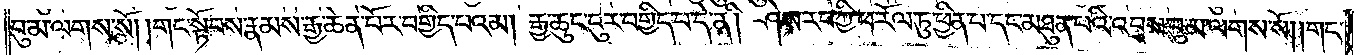བུ་མ་ལགས་སོ། །གང་སྟོབས་རྣམས་རྒྱ་ཆེན་པོར་བགྱིད་པའམ། རྒྱ་ཆུང་ངུར་བགྱིད་པ་དེ་ནི། ཤེས་རབ་ཀྱི་ཕ་རོལ་ཏུ་ཕྱིན་པ་དང་མཐུན་པའི་འབྲས་བུ་མ་ལགས་སོ། །གང་
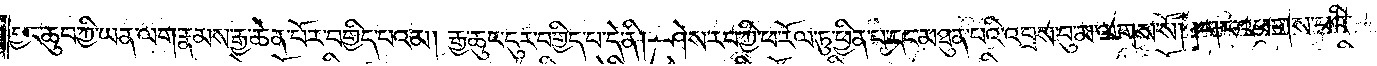བྱང་ཆུབ་ཀྱི་ཡན་ལག་རྣམས་རྒྱ་ཆེན་པོར་བགྱིད་པའམ། རྒྱ་ཆུང་ངུར་བགྱིད་པ་དེ་ནི། ཤེས་རབ་ཀྱི་ཕ་རོལ་ཏུ་ཕྱིན་པ་དང་མཐུན་པའི་འབྲས་བུ་མ་ལགས་སོ། །གང་འཕགས་པའི་
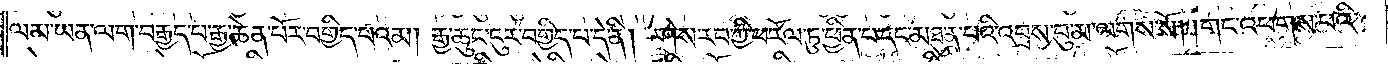ལམ་ཡན་ལག་བརྒྱད་པ་རྒྱ་ཆེན་པོར་བགྱིད་པའམ། རྒྱ་ཆུང་ངུར་བགྱིད་པ་དེ་ནི། ཤེས་རབ་ཀྱི་ཕ་རོལ་ཏུ་ཕྱིན་པ་དང་མཐུན་པའི་འབྲས་བུ་མ་ལགས་སོ། །གང་འཕགས་པའི་
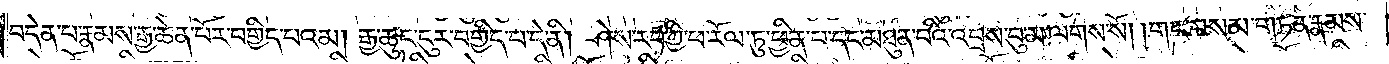བདེན་པ་རྣམས་རྒྱ་ཆེན་པོར་བགྱིད་པའམ། རྒྱ་ཆུང་ངུར་བགྱིད་པ་དེ་ནི། ཤེས་རབ་ཀྱི་ཕ་རོལ་ཏུ་ཕྱིན་པ་དང་མཐུན་པའི་འབྲས་བུ་མ་ལགས་སོ། །གང་བསམ་གཏན་རྣམས་
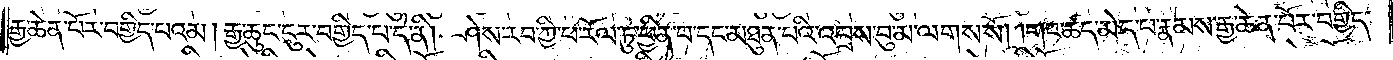རྒྱ་ཆེན་པོར་བགྱིད་པའམ། རྒྱ་ཆུང་ངུར་བགྱིད་པ་དེ་ནི། ཤེས་རབ་ཀྱི་ཕ་རོལ་ཏུ་ཕྱིན་པ་དང་མཐུན་པའི་འབྲས་བུ་མ་ལགས་སོ། །གང་ཚད་མེད་པ་རྣམས་རྒྱ་ཆེན་པོར་བགྱིད་
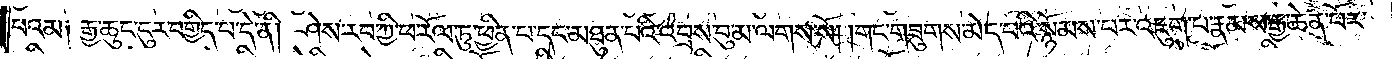པའམ༑ རྒྱ་ཆུང་ངུར་བགྱིད་པ་དེ་ནི། ཤེས་རབ་ཀྱི་ཕ་རོལ་ཏུ་ཕྱིན་པ་དང་མཐུན་པའི་འབྲས་བུ་མ་ལགས་སོ། །གང་གཟུགས་མེད་པའི་སྙོམས་པར་འཇུག་པ་རྣམས་རྒྱ་ཆེན་པོར་
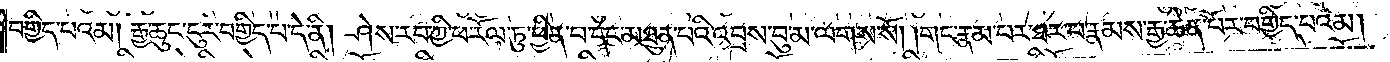བགྱིད་པའམ། རྒྱ་ཆུང་ངུར་བགྱིད་པ་དེ་ནི། ཤེས་རབ་ཀྱི་ཕ་རོལ་ཏུ་ཕྱིན་པ་དང་མཐུན་པའི་འབྲས་བུ་མ་ལགས་སོ། །གང་རྣམ་པར་ཐར་པ་རྣམས་རྒྱ་ཆེན་པོར་བགྱིད་པའམ།
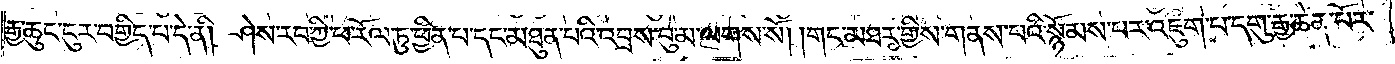རྒྱ་ཆུང་ངུར་བགྱིད་པ་དེ་ནི། ཤེས་རབ་ཀྱི་ཕ་རོལ་ཏུ་ཕྱིན་པ་དང་མཐུན་པའི་འབྲས་བུ་མ་ལགས་སོ། །གང་མཐར་གྱིས་གནས་པའི་སྙོམས་པར་འཇུག་པ་དགུ་རྒྱ་ཆེན་པོར་
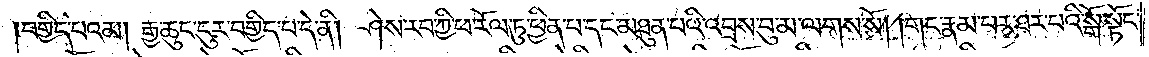བགྱིད་པའམ། རྒྱ་ཆུང་ངུར་བགྱིད་པ་དེ་ནི། ཤེས་རབ་ཀྱི་ཕ་རོལ་ཏུ་ཕྱིན་པ་དང་མཐུན་པའི་འབྲས་བུ་མ་ལགས་སོ། །གང་རྣམ་པར་ཐར་པའི་སྒོ་སྟོང་
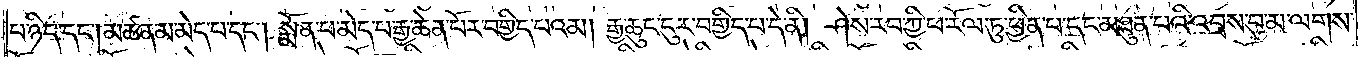པ་ཉིད་དང༌། མཚན་མ་མེད་པ་དང༌། སྨོན་པ་མེད་པ་རྒྱ་ཆེན་པོར་བགྱིད་པའམ། རྒྱ་ཆུང་ངུར་བགྱིད་པ་དེ་ནི། ཤེས་རབ་ཀྱི་ཕ་རོལ་ཏུ་ཕྱིན་པ་དང་མཐུན་པའི་འབྲས་བུ་མ་ལགས་
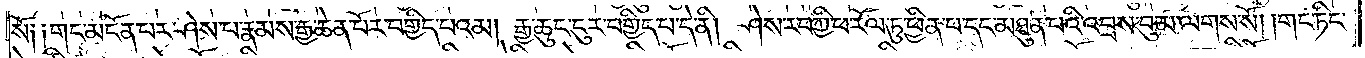སོ༑ ༑གང་མངོན་པར་ཤེས་པ་རྣམས་རྒྱ་ཆེན་པོར་བགྱིད་པའམ། རྒྱ་ཆུང་ངུར་བགྱིད་པ་དེ་ནི། ཤེས་རབ་ཀྱི་ཕ་རོལ་ཏུ་ཕྱིན་པ་དང་མཐུན་པའི་འབྲས་བུ་མ་ལགས་སོ། །གང་ཏིང་
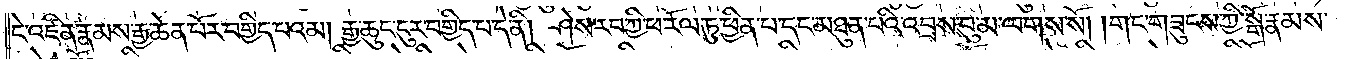ངེ་འཛིན་རྣམས་རྒྱ་ཆེན་པོར་བགྱིད་པའམ། རྒྱ་ཆུང་ངུར་བགྱིད་པ་དེ་ནི། ཤེས་རབ་ཀྱི་ཕ་རོལ་ཏུ་ཕྱིན་པ་དང་མཐུན་པའི་འབྲས་བུ་མ་ལགས་སོ། །གང་གཟུགས་ཀྱི་སྒོ་རྣམས་
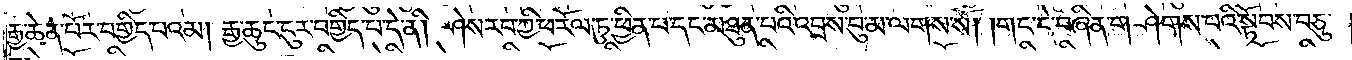རྒྱ་ཆེན་པོར་བགྱིད་པའམ། རྒྱ་ཆུང་ངུར་བགྱིད་པ་དེ་ནི། ཤེས་རབ་ཀྱི་ཕ་རོལ་ཏུ་ཕྱིན་པ་དང་མཐུན་པའི་འབྲས་བུ་མ་ལགས་སོ། །གང་དེ་བཞིན་གཤེགས་པའི་སྟོབས་བཅུ་
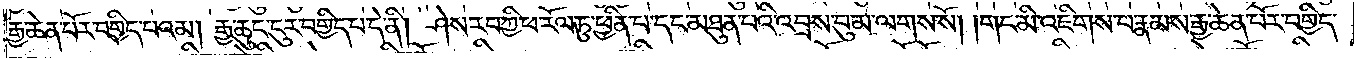རྒྱ་ཆེན་པོར་བགྱིད་པའམ། རྒྱ་ཆུང་ངུར་བགྱིད་པ་དེ་ནི། ཤེས་རབ་ཀྱི་ཕ་རོལ་ཏུ་ཕྱིན་པ་དང་མཐུན་པའི་འབྲས་བུ་མ་ལགས་སོ། །གང་མི་འཇིགས་པ་རྣམས་རྒྱ་ཆེན་པོར་བགྱིད་
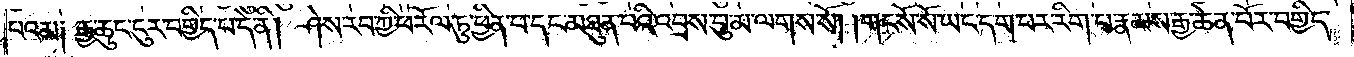པའམ༑ རྒྱ་ཆུང་ངུར་བགྱིད་པ་དེ་ནི། ཤེས་རབ་ཀྱི་ཕ་རོལ་ཏུ་ཕྱིན་པ་དང་མཐུན་པའི་འབྲས་བུ་མ་ལགས་སོ། གང་སོ་སོ་ཡང་དག་པར་རིག་པ་རྣམས་རྒྱ་ཆེན་པོར་བགྱིད་
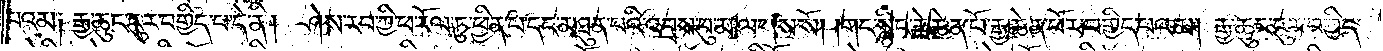པའམ༑ རྒྱ་ཆུང་ངུར་བགྱིད་པ་དེ་ནི། ཤེས་རབ་ཀྱི་ཕ་རོལ་ཏུ་ཕྱིན་པ་དང་མཐུན་པའི་འབྲས་བུ་མ་ལགས་སོ། །གང་སྙིང་རྗེ་ཆེན་པོ་རྒྱ་ཆེན་པོར་བགྱིད་པའམ། རྒྱ་ཆུང་ངུར་བགྱིད་
